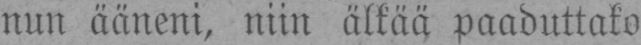nun ääneni, niin älkää paaduttako
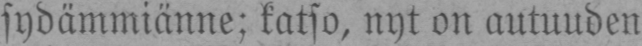sydämmiänne; katso, nyt on autuuden
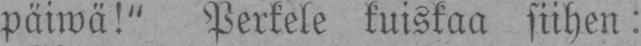päiwä!" Perkele kuiskaa siihen:
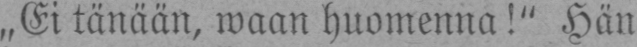„Ei tänään, waan huomenna!" Hän
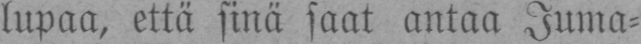lupaa, että sinä saat antaa Juma-
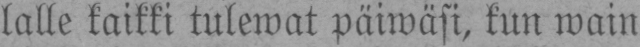lalle kaikki tulewat päiwäsi, kun wain
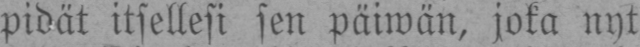pidät itsellesi sen päiwän, joka nyt
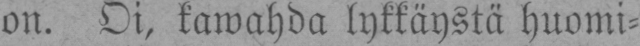on. Oi, kawahda lykkäystä huomi-
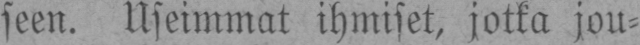seen. Useimmat ihmiset, jotka jou-
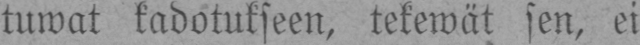tuwat kadotukseen, tekewät sen, ei
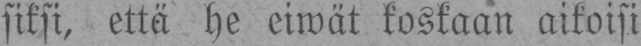siksi, että he eiwät koskaan aikoisi
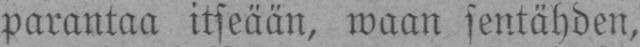parantaa itseään, waan sentähden,
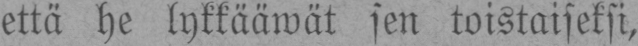että he lykkääwät sen toistaiseksi,
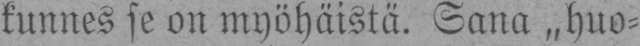kunnes se on myöhäistä. Sana „huo-
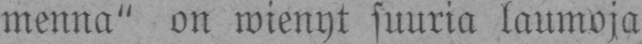menna" on wienyt suuria laumoja
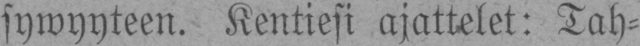sywyyteen. Kentiesi ajattelet: Tah-
